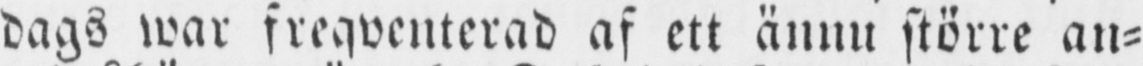dags war frekventerad af ett ännu större an-
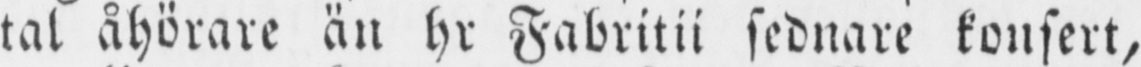tal åhörare än hr Fabritii sednare konsert,
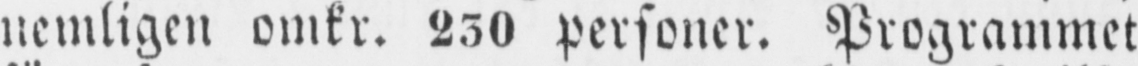nemligen omkr. 230 personer. Programmet
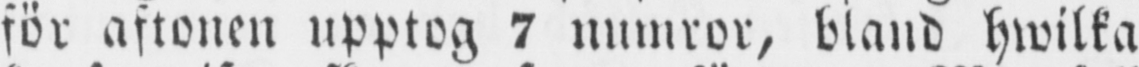för aftonen upptog 7 numror, bland hwilka
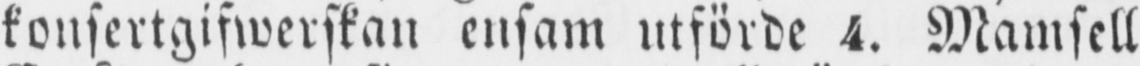konsertgifwerskan ensam utförde 4. Mamsell
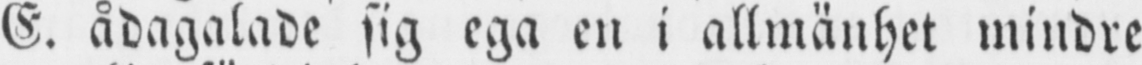E. ådagalade sig ega en i allmänhet mindre
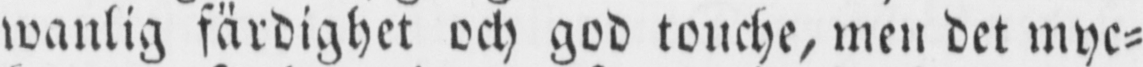wanlig färdighet och god touche, men det myc-
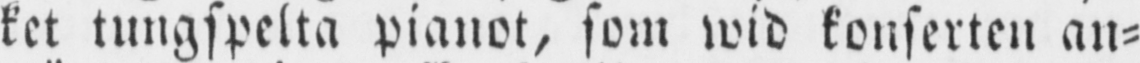ket tungspelta pianot, som wid konserten an-
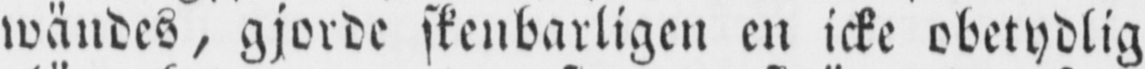wändes, gjorde skenbarligen en icke obetydlig
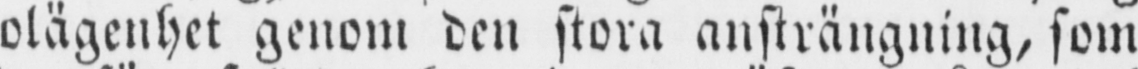olägenhet genom den stora ansträngning, som
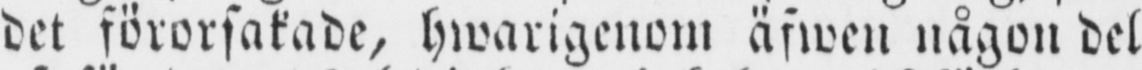det förorsakade, hwarigenom äfwen någon del
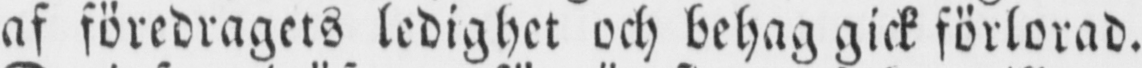af föredragets ledighet och behag gick förlorad.
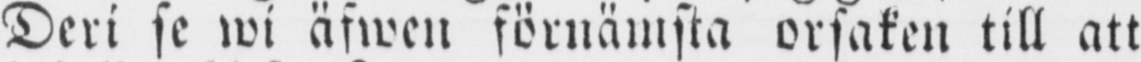Deri se wi äfwen förnämsta orsaken till att
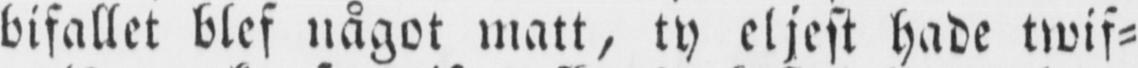bifallet blef något matt, ty eljest hade twif-
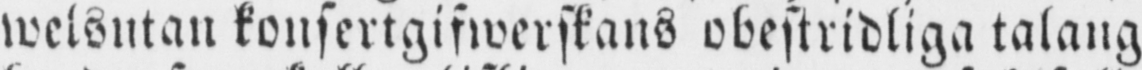welsutan konsertgifwerskans obestridliga talang
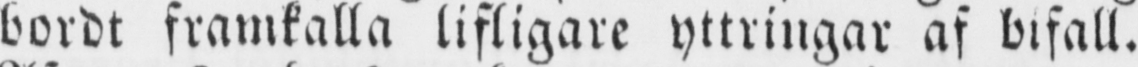bordt framkalla lifligare yttringar af bifall.
